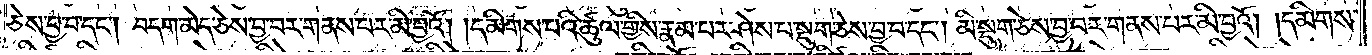ཅེས་བྱ་བ་དང༌། བདག་མེད་ཅེས་བྱ་བར་གནས་པར་མི་བྱའོ། །དམིགས་པའི་ཚུལ་གྱིས་རྣམ་པར་ཤེས་པ་སྡུག་ཅེས་བྱ་བ་དང༌། མི་སྡུག་ཅེས་བྱ་བར་གནས་པར་མི་བྱའོ། །དམིགས་
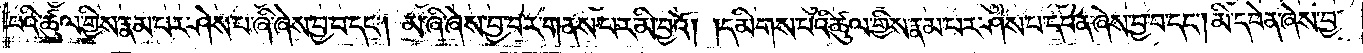པའི་ཚུལ་གྱིས་རྣམ་པར་ཤེས་པ་ཞི་ཞེས་བྱ་བ་དང༌། མ་ཞི་ཞེས་བྱ་བར་གནས་པར་མི་བྱའོ། །དམིགས་པའི་ཚུལ་གྱིས་རྣམ་པར་ཤེས་པ་དབེན་ཞེས་བྱ་བ་དང༌། མི་དབེན་ཞེས་བྱ་
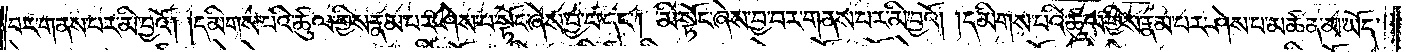བར་གནས་པར་མི་བྱའོ། །དམིགས་པའི་ཚུལ་གྱིས་རྣམ་པར་ཤེས་པ་སྟོང་ཞེས་བྱ་བ་དང༌། མི་སྟོང་ཞེས་བྱ་བར་གནས་པར་མི་བྱའོ། །དམིགས་པའི་ཚུལ་གྱིས་རྣམ་པར་ཤེས་པ་མཚན་མ་ཡོད་
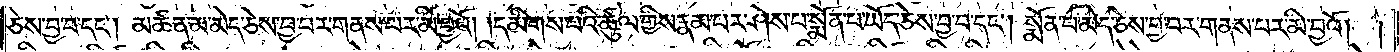ཅེས་བྱ་བ་དང༌། མཚན་མ་མེད་ཅེས་བྱ་བར་གནས་པར་མི་བྱའོ། །དམིགས་པའི་ཚུལ་གྱིས་རྣམ་པར་ཤེས་པ་སྨོན་པ་ཡོད་ཅེས་བྱ་བ་དང༌། སྨོན་པ་མེད་ཅེས་བྱ་བར་གནས་པར་མི་བྱའོ། །
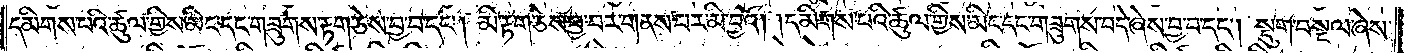དམིགས་པའི་ཚུལ་གྱིས་མིང་དང་གཟུགས་རྟག་ཅེས་བྱ་བ་དང༌། མི་རྟག་ཅེས་བྱ་བར་གནས་པར་མི་བྱའོ། །དམིགས་པའི་ཚུལ་གྱིས་མིང་དང་གཟུགས་བདེ་ཞེས་བྱ་བ་དང༌། སྡུག་བསྔལ་ཞེས་
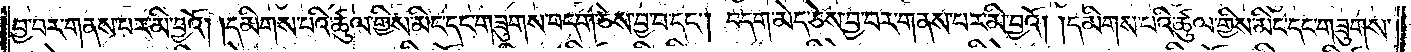བྱ་བར་གནས་པར་མི་བྱའོ། །དམིགས་པའི་ཚུལ་གྱིས་མིང་དང་གཟུགས་བདག་ཅེས་བྱ་བ་དང༌། བདག་མེད་ཅེས་བྱ་བར་གནས་པར་མི་བྱའོ། །དམིགས་པའི་ཚུལ་གྱིས་མིང་དང་གཟུགས་
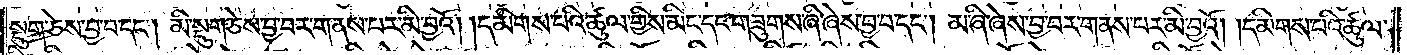སྡུག་ཅེས་བྱ་བ་དང༌། མི་སྡུག་ཅེས་བྱ་བར་གནས་པར་མི་བྱའོ། །དམིགས་པའི་ཚུལ་གྱིས་མིང་དང་གཟུགས་ཞི་ཞེས་བྱ་བ་དང༌། མ་ཞི་ཞེས་བྱ་བར་གནས་པར་མི་བྱའོ། །དམིགས་པའི་ཚུལ་
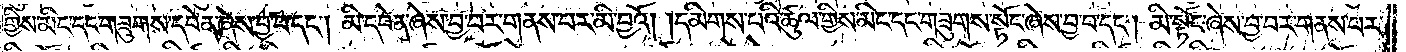གྱིས་མིང་དང་གཟུགས་དབེན་ཞེས་བྱ་བ་དང༌། མི་དབེན་ཞེས་བྱ་བར་གནས་པར་མི་བྱའོ། །དམིགས་པའི་ཚུལ་གྱིས་མིང་དང་གཟུགས་སྟོང་ཞེས་བྱ་བ་དང༌། མི་སྟོང་ཞེས་བྱ་བར་གནས་པར་
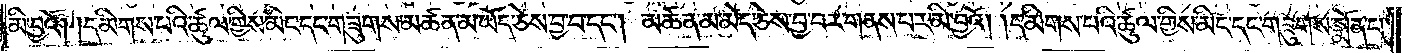མི་བྱའོ། །དམིགས་པའི་ཚུལ་གྱིས་མིང་དང་གཟུགས་མཚན་མ་ཡོད་ཅེས་བྱ་བ་དང༌། མཚན་མ་མེད་ཅེས་བྱ་བར་གནས་པར་མི་བྱའོ། །དམིགས་པའི་ཚུལ་གྱིས་མིང་དང་གཟུགས་སྨོན་པ་
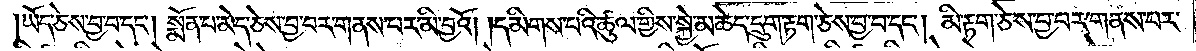ཡོད་ཅེས་བྱ་བ་དང༌། སྨོན་པ་མེད་ཅེས་བྱ་བར་གནས་པར་མི་བྱའོ། །དམིགས་པའི་ཚུལ་གྱིས་སྐྱེ་མཆེད་དྲུག་རྟག་ཅེས་བྱ་བ་དང༌། མི་རྟག་ཅེས་བྱ་བར་གནས་པར་
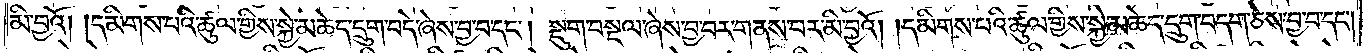མི་བྱའོ། །དམིགས་པའི་ཚུལ་གྱིས་སྐྱེ་མཆེད་དྲུག་བདེ་ཞེས་བྱ་བ་དང༌། སྡུག་བསྔལ་ཞེས་བྱ་བར་གནས་པར་མི་བྱའོ། །དམིགས་པའི་ཚུལ་གྱིས་སྐྱེ་མཆེད་དྲུག་བདག་ཅེས་བྱ་བ་དང༌།
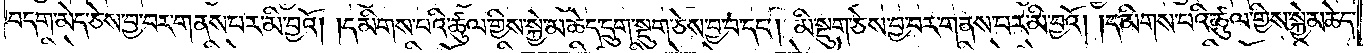བདག་མེད་ཅེས་བྱ་བར་གནས་པར་མི་བྱའོ། །དམིགས་པའི་ཚུལ་གྱིས་སྐྱེ་མཆེད་དྲུག་སྡུག་ཅེས་བྱ་པ་དང༌། མི་སྡུག་ཅེས་བྱ་བར་གནས་པར་མི་བྱའོ། །དམིགས་པའི་ཚུལ་གྱིས་སྐྱེ་མཆེད་
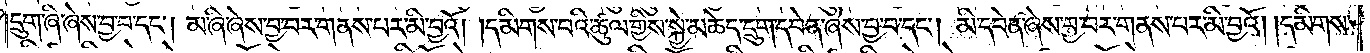དྲུག་ཞི་ཞེས་བྱ་བ་དང༌། མ་ཞི་ཞེས་བྱ་བར་གནས་པར་མི་བྱའོ། །དམིགས་པའི་ཚུལ་གྱིས་སྐྱེ་མཆེད་དྲུག་དབེན་ཞེས་བྱ་བ་དང༌། མི་དབེན་ཞེས་བྱ་བར་གནས་པར་མི་བྱའོ། །དམིགས་
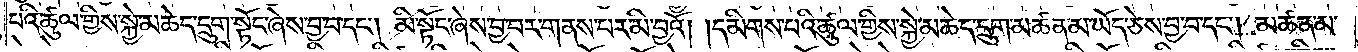པའི་ཚུལ་གྱིས་སྐྱེ་མཆེད་དྲུག་སྟོང་ཞེས་བྱ་བ་དང༌། མི་སྟོང་ཞེས་བྱ་བར་གནས་པར་མི་བྱའོ། །དམིགས་པའི་ཚུལ་གྱིས་སྐྱེ་མཆེད་དྲུག་མཚན་མ་ཡོད་ཅེས་བྱ་བ་དང༌། མཚན་མ་
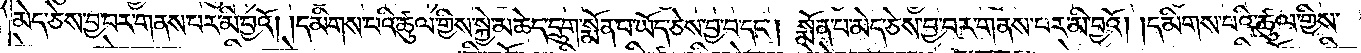མེད་ཅེས་བྱ་བར་གནས་པར་མི་བྱའོ། །དམིགས་པའི་ཚུལ་གྱིས་སྐྱེ་མཆེད་དྲུག་སྨོན་པ་ཡོད་ཅེས་བྱ་བ་དང༌། སྨོན་པ་མེད་ཅེས་བྱ་བར་གནས་པར་མི་བྱའོ། །དམིགས་པའི་ཚུལ་གྱིས་
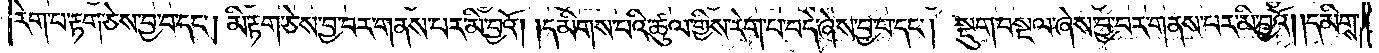རེག་པ་རྟག་ཅེས་བྱ་བ་དང༌། མི་རྟག་ཅེས་བྱ་བར་གནས་པར་མི་བྱའོ། །དམིགས་པའི་ཚུལ་གྱིས། རེག་པ་བདེ་ཞེས་བྱ་བ་དང༌། སྡུག་བསྔལ་ཞེས་བྱ་བར་གནས་པར་མི་བྱའོ། །དམིགས་
